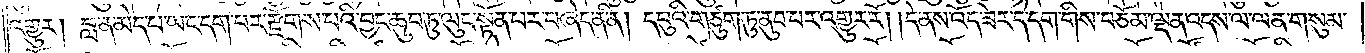འགྱུར། བླ་ན་མེད་པ་ཡང་དག་པར་རྫོགས་པའི་བྱང་ཆུབ་ཏུ་ལུང་སྟོན་པར་བཞེད་ན་ནི། དབུའི་གཙུག་ཏུ་ནུབ་པར་འགྱུར་རོ། །དེ་ནས་འོད་ཟེར་དེ་དག་གིས་བཅོམ་ལྡན་འདས་ལ་ལན་གསུམ་
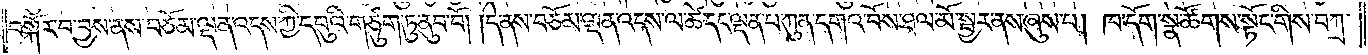བསྐོར་བ་བྱས་ནས་བཅོམ་ལྡན་འདས་ཀྱི་དབུའི་གཙུག་ཏུ་ནུབ་བོ། །དེ་ནས་བཅོམ་ལྡན་འདས་ལ་ཚེ་དང་ལྡན་པ་ཀུན་དགའ་བོས་ཐལ་མོ་སྦྱར་ནས་ཞུས་པ། ཁ་དོག་སྣ་ཚོགས་སྟོང་གིས་བཀྲ་
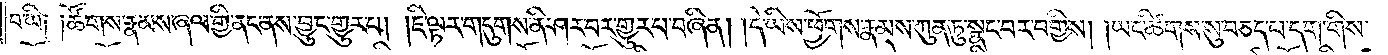བ་ཡི༑ ༑ཚོགས་རྣམས་ཞལ་གྱི་ནང་ནས་བྱུང་གྱུར་པ། །ཇི་ལྟར་གདུགས་ནི་ཤར་བར་གྱུར་པ་བཞིན། །དེ་ཡིས་ཕྱོགས་རྣམས་ཀུན་ཏུ་སྣང་བར་བགྱིས། །ཡང་ཚིགས་སུ་བཅད་པ་དག་གིས་
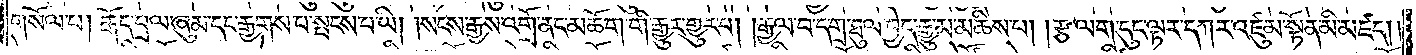གསོལ་པ། རྒོད་བྲལ་ཞུམ་དང་རྒྱགས་པ་སྤངས་པ་ཡི། །སངས་རྒྱས་འགྲོ་ནང་མཆོག་གི་རྒྱུར་གྱུར་པ། །རྒྱལ་བ་དགྲ་ཐུལ་བྱེད་རྒྱུ་མ་མཆིས་པ། །རྩ་ལག་དུང་ལྟར་དཀར་འཛུམ་སྟོན་མི་མཛད། །
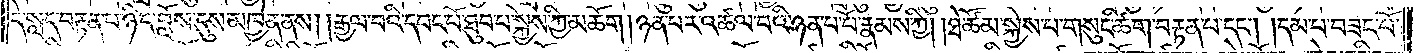དེ་སླད་བརྟན་པ་ཉིད་བློས་དུས་མཁྱེན་ནས། །རྒྱལ་བའི་དབང་པོ་ཐུབ་པ་སྐྱེས་ཀྱི་མཆོག །ཉན་པར་འཚལ་བའི་ཉན་པ་པོ་རྣམས་ཀྱི། །ཐེ་ཚོམ་སྐྱེས་པ་གསུང་ཚིག་བརྟན་པ་དང༌། །དམ་པ་བཟང་པོ་
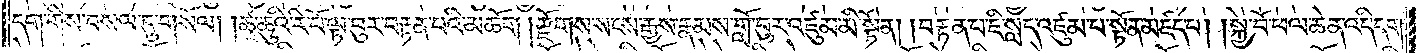དག་གིས་བསལ་དུ་གསོལ། །ཚྭ་ཆུའི་རི་བོ་ལྟ་བུར་བརྟན་པའི་མཆོག །རྫོགས་སངས་རྒྱས་རྣམས་གློ་བུར་འཛུམ་མི་སྟོན། །བརྟན་པ་ཇི་སླད་འཛུམ་པ་སྟོན་མཛད་པ། །སྐྱེ་བོ་ཕལ་ཆེན་འདི་དག་
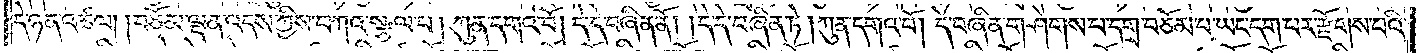དེ་ཉན་འཚལ། །བཅོམ་ལྡན་འདས་ཀྱིས་བཀའ་སྩལ་པ། ཀུན་དགའ་བོ། དེ་དེ་བཞིན་ནོ། །དེ་དེ་བཞིན་ཏེ། ཀུན་དགའ་བོ། དེ་བཞིན་གཤེགས་པ་དགྲ་བཅོམ་པ་ཡང་དག་པར་རྫོགས་པའི་
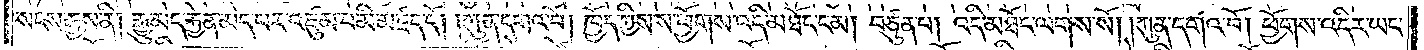སངས་རྒྱས་ནི། རྒྱུ་མེད་རྐྱེན་མེད་པར་འཛུམ་པ་མི་མཛད་དོ། །ཀུན་དགའ་བོ། ཁྱོད་ཀྱིས་ས་ཕྱོགས་འདི་མཐོང་ངམ། བཙུན་པ། འདི་མཐོང་ལགས་སོ། །ཀུན་དགའ་བོ། ཕྱོགས་འདིར་ཡང་
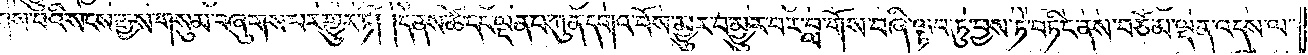རྫོགས་པའི་སངས་རྒྱས་གསུམ་བཞུགས་པར་གྱུར་ཏོ། །དེ་ནས་ཚེ་དང་ལྡན་པ་ཀུན་དགའ་བོས་མྱུར་བ་མྱུར་བར་བླ་གོས་བཞི་ལྟབ་ཏུ་བྱས་ཏེ་བཏིང་ནས་བཅོམ་ལྡན་འདས་ལ་
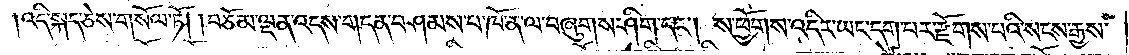འདི་སྐད་ཅེས་གསོལ་ཏོ། །བཅོམ་ལྡན་འདས་གདན་བཤམས་པ་ཁོ་ན་ལ་བཞུགས་ཤིག་དང༌། ས་ཕྱོགས་འདིར་ཡང་དག་པར་རྫོགས་པའི་སངས་རྒྱས་
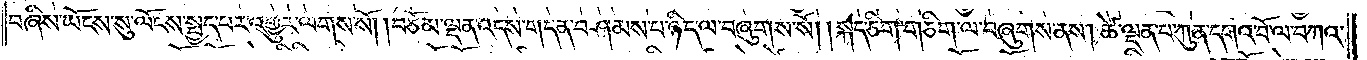བཞིས་ཡོངས་སུ་ལོངས་སྤྱད་པར་འགྱུར་ལགས་སོ། །བཅོམ་ལྡན་འདས་གདན་བཤམས་པ་ཉིད་ལ་བཞུགས་སོ། །སྐད་ཅིག་གཅིག་ལ་བཞུགས་ནས། ཚེ་ལྡན་པ་ཀུན་དགའ་བོ་ལ་བཀའ་
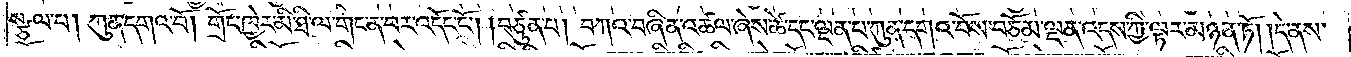སྩལ་པ། ཀུན་དགའ་བོ། གྲོང་ཁྱེར་མི་ཐི་ལ་གང་ན་བར་འདོང་ངོ༌། །བཙུན་པ། བཀའ་བཞིན་འཚལ་ཞེས་ཚེ་དང་ལྡན་པ་ཀུན་དགའ་བོས་བཅོམ་ལྡན་འདས་ཀྱི་ལྟར་མཉན་ཏོ། །དེ་ནས་
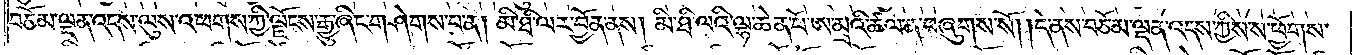བཅོམ་ལྡན་འདས་ལུས་འཕགས་ཀྱི་ལྗོངས་རྒྱུ་ཞིང་གཤེགས་པ་ན། མི་ཐི་ལར་བྱོན་ནས། མི་ཐི་ལའི་ལྷ་ཆེན་པོ་ཨ་མྲའི་ཚལ་ན་བཞུགས་སོ། །དེ་ནས་བཅོམ་ལྡན་འདས་ཀྱིས་ས་ཕྱོགས་
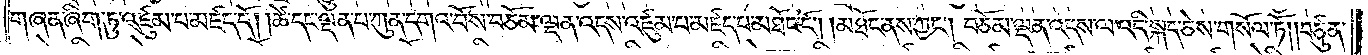གཞན་ཞིག་ཏུ་འཛུམ་པ་མཛད་དོ། །ཚེ་དང་ལྡན་པ་ཀུན་དགའ་བོས་བཅོམ་ལྡན་འདས་འཛུམ་པ་མཛད་པ་མཐོང་ངོ༌། །མཐོང་ནས་ཀྱང༌། བཅོམ་ལྡན་འདས་ལ་འདི་སྐད་ཅེས་གསོལ་ཏོ། །བཙུན་
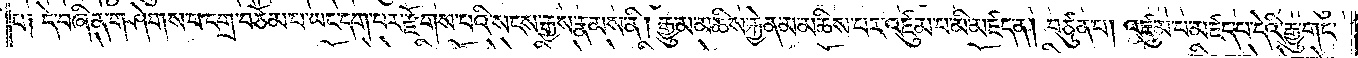པ༑ དེ་བཞིན་གཤེགས་པ་དགྲ་བཅོམ་པ་ཡང་དག་པར་རྫོགས་པའི་སངས་རྒྱས་རྣམས་ནི། རྒྱུ་མ་མཆིས་རྐྱེན་མ་མཆིས་པར་འཛུམ་པ་མི་མཛད་ན། བཙུན་པ། འཛུམ་པ་མཛད་པ་དེའི་རྒྱུ་གང་
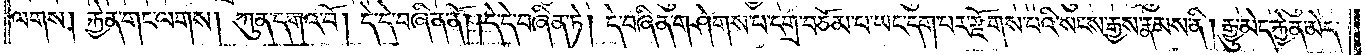ལགས། རྐྱེན་གང་ལགས། ཀུན་དགའ་བོ། དེ་དེ་བཞིན་ནོ། །དེ་དེ་བཞིན་ཏེ། དེ་བཞིན་གཤེགས་པ་དགྲ་བཅོམ་པ་ཡང་དག་པར་རྫོགས་པའི་སངས་རྒྱས་རྣམས་ནི། རྒྱུ་མེད་རྐྱེན་མེད་
